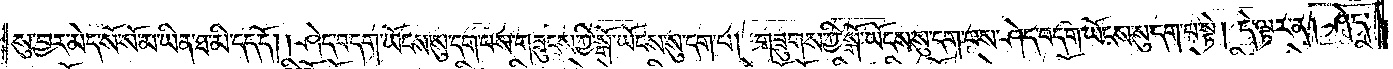སུ་བྱར་མེད་སོ་སོ་མ་ཡིན་ཐ་མི་དད་དོ། །ཤེད་བདག་ཡོངས་སུ་དག་པས་གཟུངས་ཀྱི་སྒོ་ཡོངས་སུ་དག་པ། གཟུངས་ཀྱི་སྒོ་ཡོངས་སུ་དག་པས་ཤེད་བདག་ཡོངས་སུ་དག་པ་སྟེ། དེ་ལྟར་ན། ཤེད་
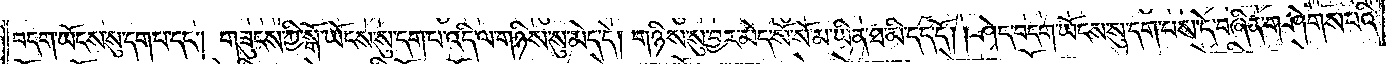བདག་ཡོངས་སུ་དག་པ་དང༌། གཟུངས་ཀྱི་སྒོ་ཡོངས་སུ་དག་པ་འདི་ལ་གཉིས་སུ་མེད་དེ། གཉིས་སུ་བྱར་མེད་སོ་སོ་མ་ཡིན་ཐ་མི་དད་དོ། །ཤེད་བདག་ཡོངས་སུ་དག་པས་དེ་བཞིན་གཤེགས་པའི་
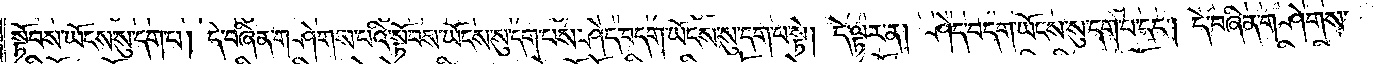སྟོབས་ཡོངས་སུ་དག་པ། དེ་བཞིན་གཤེགས་པའི་སྟོབས་ཡོངས་སུ་དག་པས་ཤེད་བདག་ཡོངས་སུ་དག་པ་སྟེ། དེ་ལྟར་ན། ཤེད་བདག་ཡོངས་སུ་དག་པ་དང༌། དེ་བཞིན་གཤེགས་
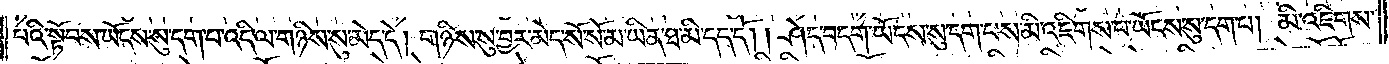པའི་སྟོབས་ཡོངས་སུ་དག་པ་འདི་ལ་གཉིས་སུ་མེད་དེ། གཉིས་སུ་བྱར་མེད་སོ་སོ་མ་ཡིན་ཐ་མི་དད་དོ། །ཤེད་བདག་ཡོངས་སུ་དག་པས་མི་འཇིགས་པ་ཡོངས་སུ་དག་པ། མི་འཇིགས་
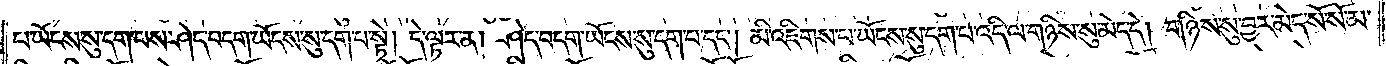པ་ཡོངས་སུ་དག་པས་ཤེད་བདག་ཡོངས་སུ་དག་པ་སྟེ། དེ་ལྟར་ན། ཤེད་བདག་ཡོངས་སུ་དག་པ་དང༌། མི་འཇིགས་པ་ཡོངས་སུ་དག་པ་འདི་ལ་གཉིས་སུ་མེད་དེ། གཉིས་སུ་བྱར་མེད་སོ་སོ་མ་
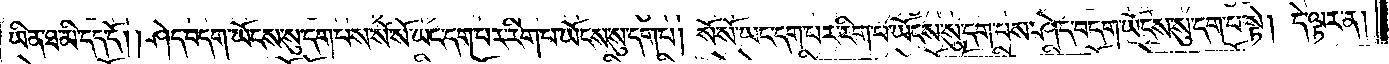ཡིན་ཐ་མི་དད་དོ། །ཤེད་བདག་ཡོངས་སུ་དག་པས་སོ་སོ་ཡང་དག་པར་རིག་པ་ཡོངས་སུ་དག་པ། སོ་སོ་ཡང་དག་པར་རིག་པ་ཡོངས་སུ་དག་པས་ཤེད་བདག་ཡོངས་སུ་དག་པ་སྟེ། དེ་ལྟར་ན།
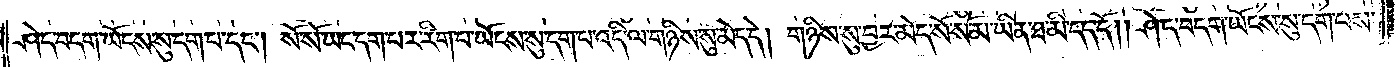ཤེད་བདག་ཡོངས་སུ་དག་པ་དང༌། སོ་སོ་ཡང་དག་པར་རིག་པ་ཡོངས་སུ་དག་པ་འདི་ལ་གཉིས་སུ་མེད་དེ། གཉིས་སུ་བྱར་མེད་སོ་སོ་མ་ཡིན་ཐ་མི་དད་དོ། །ཤེད་བདག་ཡོངས་སུ་དག་པས་
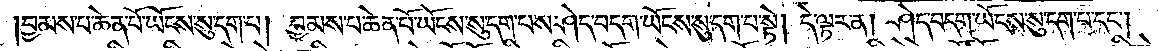བྱམས་པ་ཆེན་པོ་ཡོངས་སུ་དག་པ། བྱམས་པ་ཆེན་པོ་ཡོངས་སུ་དག་པས་ཤེད་བདག་ཡོངས་སུ་དག་པ་སྟེ། དེ་ལྟར་ན། ཤེད་བདག་ཡོངས་སུ་དག་པ་དང༌།
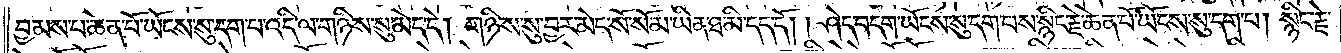བྱམས་པ་ཆེན་པོ་ཡོངས་སུ་དག་པ་འདི་ལ་གཉིས་སུ་མེད་དེ། གཉིས་སུ་བྱར་མེད་སོ་སོ་མ་ཡིན་ཐ་མི་དད་དོ། །ཤེད་བདག་ཡོངས་སུ་དག་པས་སྙིང་རྗེ་ཆེན་པོ་ཡོངས་སུ་དག་པ། སྙིང་རྗེ་
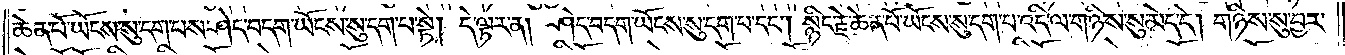ཆེན་པོ་ཡོངས་སུ་དག་པས་ཤེད་བདག་ཡོངས་སུ་དག་པ་སྟེ། དེ་ལྟར་ན། ཤེད་བདག་ཡོངས་སུ་དག་པ་དང༌། སྙིང་རྗེ་ཆེན་པོ་ཡོངས་སུ་དག་པ་འདི་ལ་གཉིས་སུ་མེད་དེ། གཉིས་སུ་བྱར་
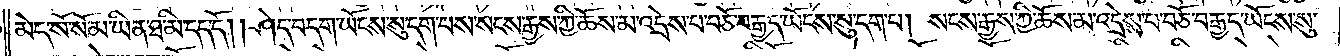མེད་སོ་སོ་མ་ཡིན་ཐ་མི་དད་དོ། །ཤེད་བདག་ཡོངས་སུ་དག་པས་སངས་རྒྱས་ཀྱི་ཆོས་མ་འདྲེས་པ་བཅོ་བརྒྱད་ཡོངས་སུ་དག་པ། སངས་རྒྱས་ཀྱི་ཆོས་མ་འདྲེས་པ་བཅོ་བརྒྱད་ཡོངས་སུ་
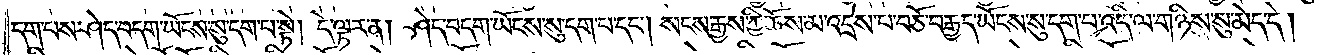དག་པས་ཤེད་བདག་ཡོངས་སུ་དག་པ་སྟེ། དེ་ལྟར་ན། ཤེད་བདག་ཡོངས་སུ་དག་པ་དང༌། སངས་རྒྱས་ཀྱི་ཆོས་མ་འདྲེས་པ་བཅོ་བརྒྱད་ཡོངས་སུ་དག་པ་འདི་ལ་གཉིས་སུ་མེད་དེ།
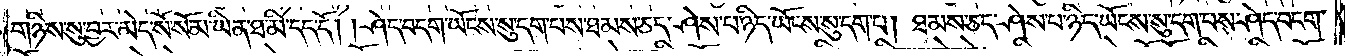གཉིས་སུ་བྱར་མེད་སོ་སོ་མ་ཡིན་ཐ་མི་དད་དོ། །ཤེད་བདག་ཡོངས་སུ་དག་པས་ཐམས་ཅད་ཤེས་པ་ཉིད་ཡོངས་སུ་དག་པ། ཐམས་ཅད་ཤེས་པ་ཉིད་ཡོངས་སུ་དག་པས་ཤེད་བདག་
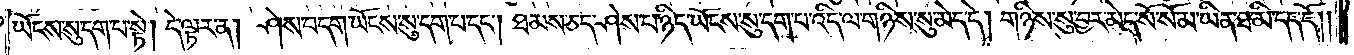ཡོངས་སུ་དག་པ་སྟེ། དེ་ལྟར་ན། ཤེད་བདག་ཡོངས་སུ་དག་པ་དང༌། ཐམས་ཅད་ཤེས་པ་ཉིད་ཡོངས་སུ་དག་པ་འདི་ལ་གཉིས་སུ་མེད་དེ། གཉིས་སུ་བྱར་མེད་སོ་སོ་མ་ཡིན་ཐ་མི་དད་དོ། །
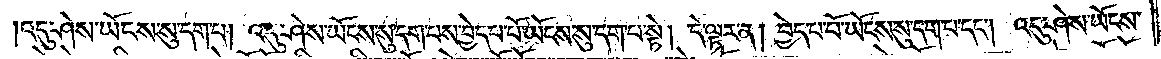འདུ་ཤེས་ཡོངས་སུ་དག་པ། འདུ་ཤེས་ཡོངས་སུ་དག་པས་བྱེད་པ་པོ་ཡོངས་སུ་དག་པ་སྟེ། དེ་ལྟར་ན། བྱེད་པ་པོ་ཡོངས་སུ་དག་པ་དང༌། འདུ་ཤེས་ཡོངས་
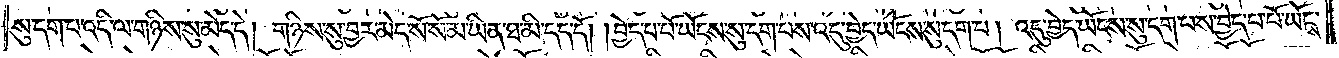སུ་དག་པ་འདི་ལ་གཉིས་སུ་མེད་དེ། གཉིས་སུ་བྱར་མེད་སོ་སོ་མ་ཡིན་ཐ་མི་དད་དོ། །བྱེད་པ་པོ་ཡོངས་སུ་དག་པས་འདུ་བྱེད་ཡོངས་སུ་དག་པ། འདུ་བྱེད་ཡོངས་སུ་དག་པས་བྱེད་པ་པོ་ཡོངས་
